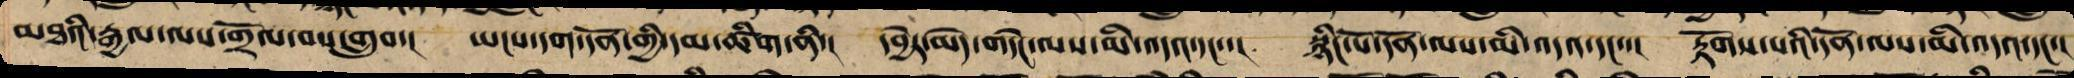མཐའི་རྒྱ་ལས་གྲོལ་བས་གྲུབ་། ཡང་དག་དོན་གྱི་དམ་ཚིག་ནི་། དབྱེར་མེད་གདེང་ལས་མི་འདའ་དང་་། སྙིང་པོའི་དོན་ལས་མི་འདའ་དང་་། རྟོགས་པའི་དོན་ལས་མི་འདའ་དང་།
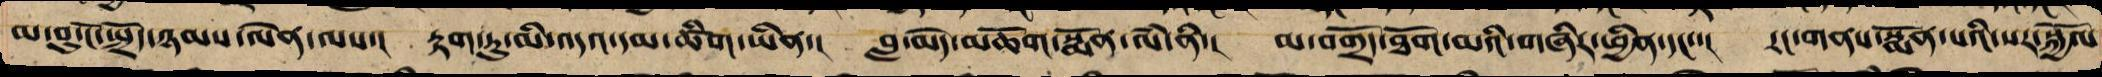མ་བུ་ངོ་སྤྲོད་ཉམས་ལེན་ལས་། རྟག་ཏུ་མི་འདའ་དམ་ཚིག་ཡིན་། བླ་མེད་མཆོག་གི་སྨོན་ལམ་ནི་། མ་བགྲོད་ཐོག་མའི་གཞིར་ཕྱིན་དང་་། རང་གནས་སྨོན་པའི་སར་སྐྱོལ་
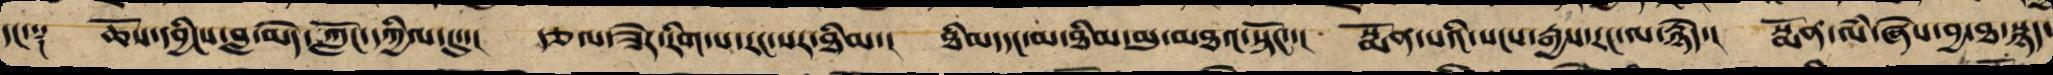དང་༑ ཆོས་དབྱིངས་བླ་མེད་ཀློང་དཀྱིལ་དུ་། རྩལ་ཟེར་རིག་པ་རང་སར་ཐིམ་། ཐིམ་དང་མ་ཐིམ་མུ་མཐའ་སྟོང་་། སྨོན་པའི་སངས་རྒྱས་རང་ལས་རྙེད་། སྨོན་ལཾ་ཞེས་བྱ་ཐ་སྙད་
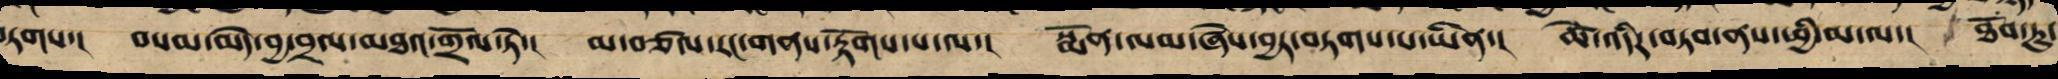བཏགས་། བསམ་མེད་བྱ་བྲལ་མཐའ་གྲོལ་ཏེ་། མ་བཙལ་རང་གནས་རྟོགས་པ་ལ་། སྨོན་ལམ་ཞེས་བྱར་བཏགས་པ་ཡིན་། ཚེ་འདིར་བཏབ་ནས་ཕྱི་མ་ལ་། ཐོབ་ཏུ་
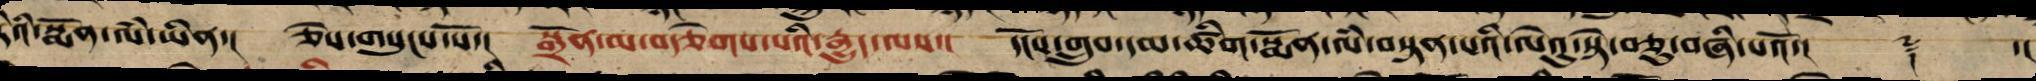ཏིའི་སྨོན་ལཾ་ཡིན་། ཅེས་གསུངས་སོ་། སྒྲོན་མ་བརྩེགས་པའི་རྒྱུད་ལས་། དངོས་གྲུབ་དམ་ཚིག་སྨོན་ལཾ་བསྟན་པའི་ལེའུ་སྟེ་བཅུ་བཞི་པའོ་།། ༈ ་།།
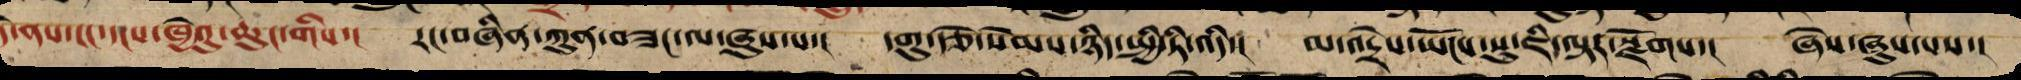དེ་ནས་ངང་དངས་ཁྱེའུ་ཆུང་གིས་། རང་བཞིན་ཀུན་བཟང་ལ་ཞུས་པ་། དགུ་རྩེ་སེམས་ཉིད་སྤྱི་ཏི་འདི་། མ་འདྲེས་ཡོངས་སུ་ཇི་ལྟར་སྫོགས་། ཞེས་ཞུས་པས་།
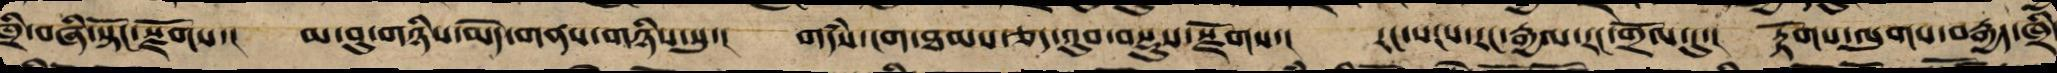ཁྲི་བཞི་སྟོང་སྫོགས་། མ་བུ་གཉིས་མེད་གནས་གཉིས་སུ།་ གདཾས་ངག་ཐམས་ཅད་འུབ་བསྡུས་སྫོགས་། རང་སངས་རང་རྒྱལ་རང་གྲོལ་དུ་། རྟོགས་ལུགས་བརྒྱད་ཁྲི
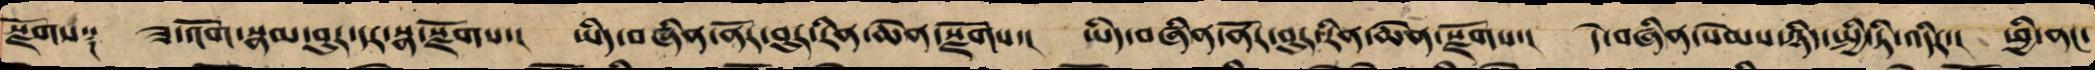སྫོགས་། ཟ་འོག་སྣམ་བུར་དར་སྣ་སྫོགས་། ཡིད་བཞིན་ནོར་བུར་རིན་ཆེན་སྫོགས་། དེ་བཞིན་སེམས་ཉིད་སྤྱི་ཏི་འདིར་། ཕྱི་ནང་
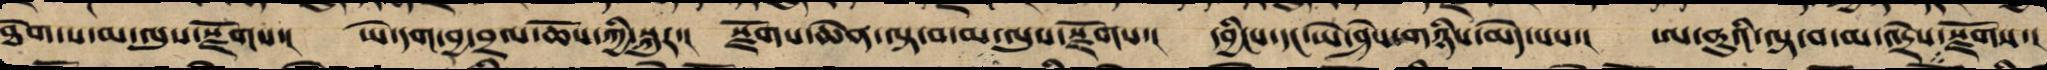ཐེག་པ་མ་ལུས་སྫོགས་། ཡེ་དག་བྱ་བྲལ་ཆོས་ཀྱི་སྐུར་། སྫོགས་ཆེན་ལྟ་བ་མ་ལུས་སྫོགས་། དབྱིངས་དང་ཡེ་ཤེས་གཉིས་མེད་པས་། ཨ་ནུའི་ལྟ་བ་མ་འདྲེས་སྫོགས་།
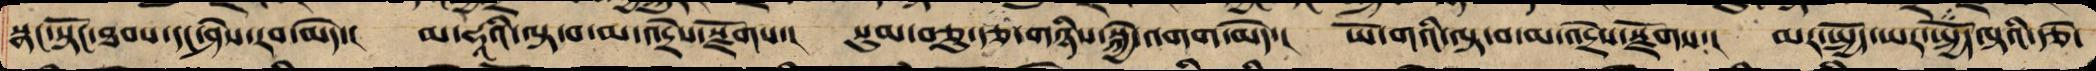སྣང་སྟོང་ཐབས་དང་ཤེས་རབ་མེད་། མ་ཧཱའི་ལྟ་བ་མ་འདྲེས་སྫོགས་། སུམ་ཅུ་རྩ་བདུན་སྐྱེ་འགག་མེད་། ཡོ་གའི་ལྟ་བ་མ་འདྲེས་སྫོགས་། མར་སྤྱོད་ཡར་ལྟའི་རྩེ་
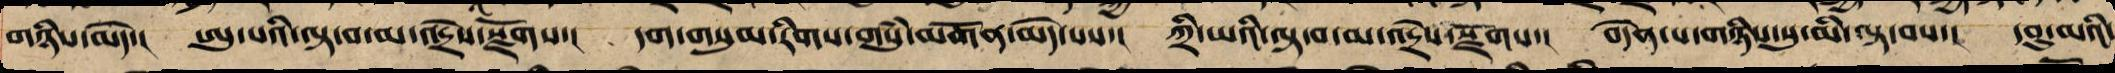གཉིས་མེད་། ཨུ་པའི་ལྟ་བ་མ་འདྲེས་སྫོགས་། དག་གསུམ་རིགས་གསུཾ་མགོན་མེད་པས་། ཀྲི་ཡའི་ལྟ་བ་མ་འདྲེས་སྫོགས་། བདེན་པ་གཉིས་སུ་མི་ལྟ་བས་། དབུ་མའི་
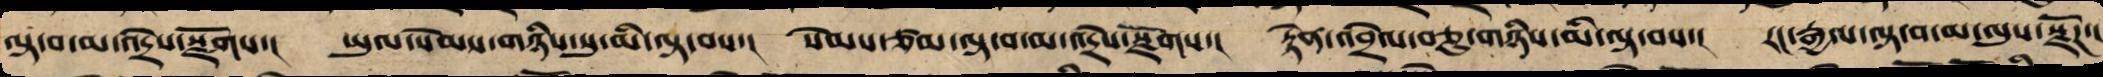ལྟ་བ་མ་འདྲེས་སྫོགས་། ཡུལ་སེམས་གཉིས་སུ་མི་ལྟ་བས་། སེམས་ཙམ་ལྟ་བ་མ་འདྲེས་སྫོགས་། རྟེན་འབྲེལ་བཅུ་གཉིས་མི་ལྟ་བས་། རང་རྒྱལ་ལྟ་བ་མ་འདྲེས་སྫོཌ་།
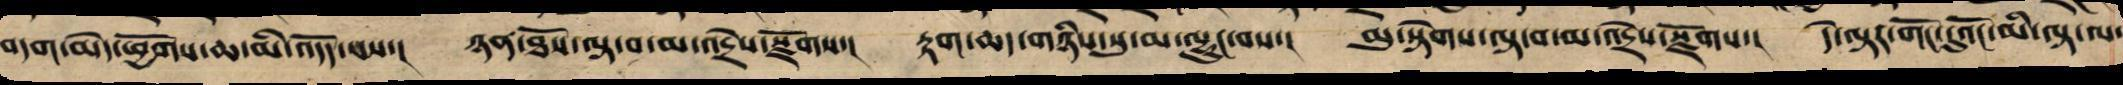བདག་མེད་ཕྱོགས་ཆ་མི་འདོད་པས་། ཉན་ཐོས་ལྟ་བ་མ་འདྲེས་སྫོགས་། རྟག་ཆད་གཉིས་སུ་མ་ལྷུང་བས་། མུ་སྟེགས་ལྟ་བ་མ་འདྲེས་སྫོགས་། དེ་ལྟར་གང་དུའོང་མི་ལྟ་ལ་
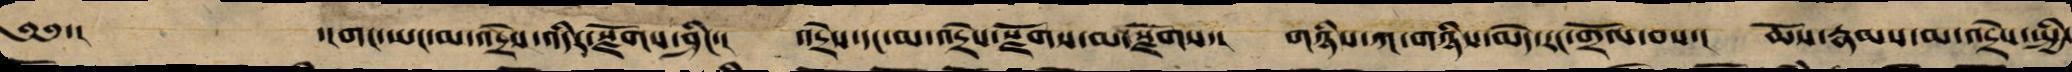༄༅་།  ་།གང་ཡང་མ་འདྲེས་འདིར་སྫོགས་ཤིང་། འདྲེས་དང་མ་འདྲེས་སྫོགས་མ་སྫོགས་། གཉིས་ཀ་གཉིས་མེད་རང་གྲོལ་བས་། ཆོས་རྣམས་མ་འདྲེས་སྤྱི་
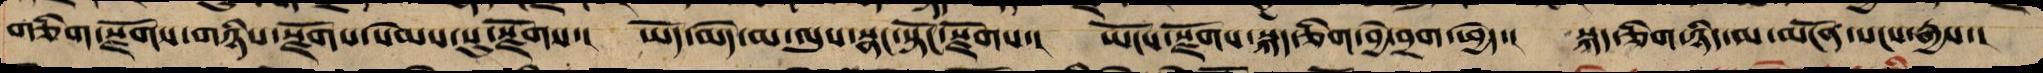གཅིག་སྫོགས་གཉིས་སྫོགས་སེམས་སུ་སྫོགས་། ཡོད་མེད་མ་ལུས་སྣང་སྟོང་སྫོགས་། ཡོངས་སྫོགས་སྐད་ཅིག་བྱེ་བྲག་ཕྱེད་། སྐད་ཅིག་ཉིད་ལ་མངོན་སངས་རྒྱས་།
